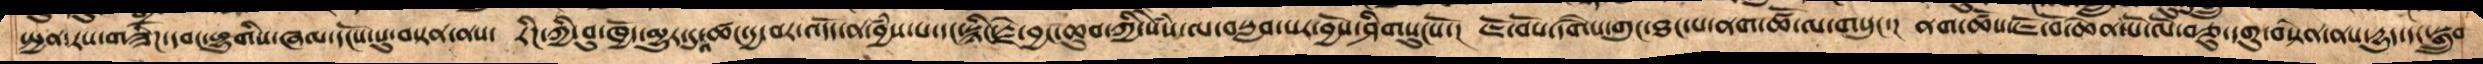སྤྱན་རས་གཟིཌ་དབང་ཕྱུགིས་ཞལ་དངོས་སུ་བསྟན་ནས། རིཌ་ཀྱི་བུ་ཁྱོད་མྱུར་དུ་འཚང་དྱ་བར་འདོད་ན་བྱཾས་པ་དང་སྙིང་རྗེ་བྱང་ཆུབ་ཀྱི་སེཾས་ལ་བསླབ་པར་བྱོས་ཤིགསུངསོ་།  ཇོ་བོས་དགཻས་གུང་ཐང་པ་ནག་ཚོ་ལ་གསུང་། ནག་ཚོས་ཇོ་བོ་ཆེན་པོ་ལོ་བཅུ་དགུ་བསྟེན་ནས་དྱུད་དང་སྒྲུབ་
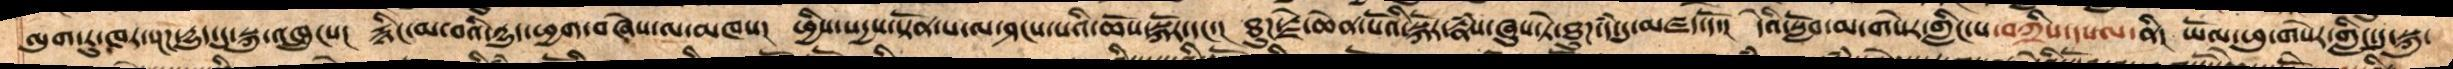ལུག་རུ་ཁར་སྔཌ་དྱུད་དུ་སྐུ་འཁྲུངས།  རྙིང་པ་བའི་དྱུད་ཕྱག་བཞེས་ལ་མཁས།  ཕྱིས་སདྱས་སྟོན་པ་ལ་ཤངས་པའི་ཆོས་སྐོར་དང་།  ཐུཌ་རྗེ་ཆེན་པོའི་སྐོར་རྣཾས་ཞུས་ཏེ་ཐུཌ་དཾ་དུ་མཛད་དོ་།  དེའི་སློབ་མ་གསེར་གླིང་པ་བཀྲིས་དཔལ་ནི།  ཡོལ་ཕུ་གསེར་གླིང་དུ་སྐུ་
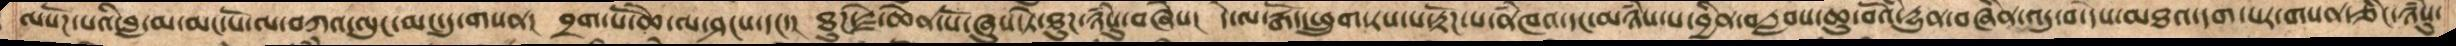ལ་སོཌ་པའིི་བླ་མ་མང་པོ་ལ་བཀའ་ལུང་མང་དུ་གསན།  བྲག་པོ་ཆེ་ལ་ཤངས་དང་།  ཐུཌ་རྗེ་ཆེན་པོ་ཞུས་ཏེ་ཐུཌ་ཉཾསུ་བཞེས།  དེ་ལ་རྒོད་ཕྲུག་རས་པ་རྟོཌ་པ་ནཾཁའ་དང་མཉཾས་པ་བྱིན་བརླབས་ཆུ་བོའི་དྱུན་བཞིན་འདུ་བ་དེས་མཐའ་དག་པར་གསན་ཅིང་ཉཾསུ་
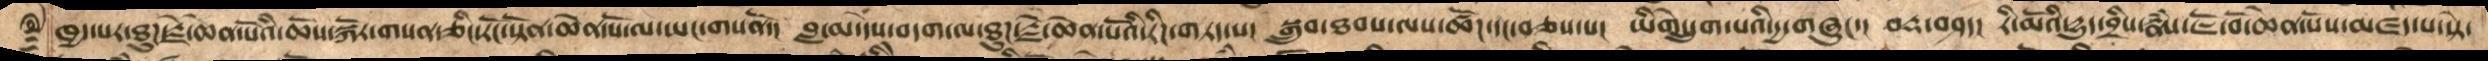ཁྱད་པར་ཐུཌ་རྗེ་ཆེན་པོའི་ཆོས་སྐོར་གསན་ཅིང་རོང་སྟོན་ཆེན་པོ་ལ་ཡང་གསནོ།  བླ་མ་དེས་བདག་ལ་ཐུཌ་རྗེ་ཆེན་པོའི་རིཌ་པ་གཏད་པ། སྒྲུབ་ཐབས་ལས་ཚོཌ་དང་བཅས་པ། ཡིགེ་དྲུག་པའི་དྱ་གཞུང་། བརྡ་བཤད། རི་མོའི་དྱུད་བྲིས་རྣཾས་ཇོ་བོ་ཆེན་པོས་མཛད་པ་སྟེ་
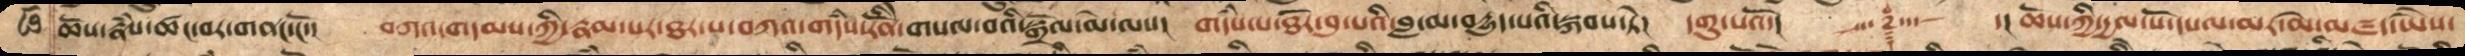ཆོས་རྣཾས་ཚང་བར་གནང་ངོ་།  བཀའ་གདམས་ཀྱི་རྣམ་པར་ཐར་པ་བཀའ་གདཾས་རིནོེ་གསལ་བའི་སྒྲོན་མེ་ལས།  གདཾས་པ་ཐོར་བུ་བའི་བླ་མ་བདྱུད་པའི་སྐབས་ཏེ། དགུ་པའོ།  ༒ ་།ཆོས་ཀྱི་དྱལ་པོ་དཔལ་མར་མེ་མཛད་ཡཻས་
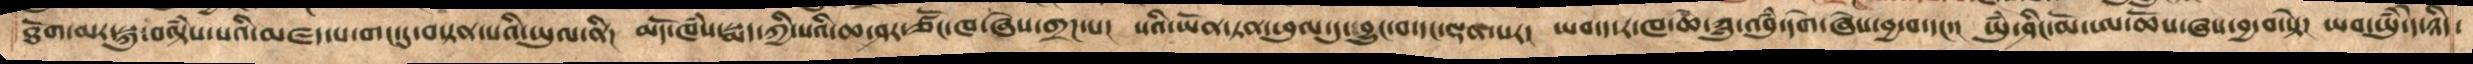ཐོག་མར་སྐུ་བལྟཾས་པའི་མཛད་པ་གང་དུ་བསྟན་པའི་ཡུལ་ནི།  མདོ་ཁཾས་སྨད་ཀྱི་སའི་ཆ་ཤར་ཙོང་ཁ་ཞེས་གྲཌ་པ།   སའི་ཡོན་ཏན་ཕུལ་དུ་བྱུང་བ་དང་ལྡན་པར།  ཡབ་ད་ར་ཁ་ཆེ་ཀླུ་འབུཾ་དགེ་ཞེས་བྱ་བ་དང་།   ཡུཾ་ཤིང་མོ་ཨ་ཆོས་ཞས་བྱ་བ་སྟེ།  ཡབ་ཡུཾ་དེ་ཉིད་
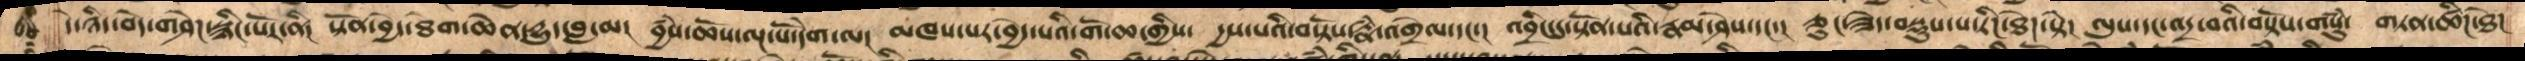དེ་ཉིད་བདེ་གཤེཌ་སྙིང་པོར་ནི།  སྟོན་བྱེད་ཐེག་ཆེན་དྱུད་བླ་མ།  བྱཾས་ཆོས་ལྔ་པོ་དེག་ལ།  མཁས་པར་བྱེད་པའི་གོ་ཆ་གྱིས། དྱས་པའི་བསྟོས་རྣཾ་འགྲེལ་དང་།  འབྲིང་དུ་སྟོན་པ་རྣམ་ཤེས་དང་།  ཅུང་ཟད་བསྡུས་པ་རིཌ་ཐེཌ་སྟེ།  ལུས་དང་འདྲ་བའི་བསྟོས་གསུཾ།  གཏན་ཚིཌ་ཐེཌ
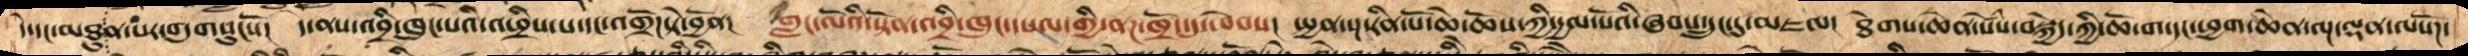དེ་དང་མཐུན་པར་འདུགསུངསོ།  དེ་ནས་འབྲི་ཁུང་པའི་འཕྲིས་པ་དང་འགྲོཌ་ཏེ་བྱོན།   གླང་ལོའི་སྟོན་འབྲི་ཁུང་དཔལ་གྱི་ནཌ་ཁྲོད་དུ་ཕེབས།   སྤྱན་སྔ་རིན་པོ་ཆེ་ཆོས་ཀྱི་དྱལ་པོའི་ཞབས་དྲུང་དུ་མཇལ།   ཐེགས་ཆེན་སེཾས་བསྐྱེད་ཀྱི་ཆོ་ག་དང་ཕྱག་ཆེན་ལྔ་ལྡན་ལསོཌ་
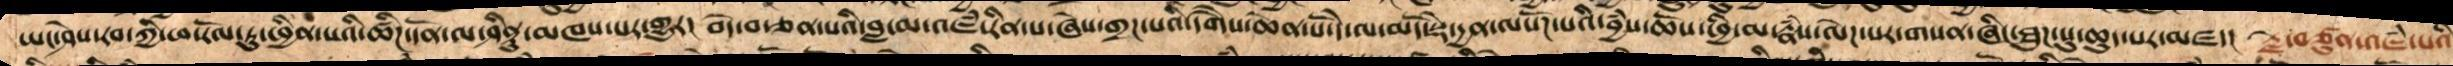ཡང་ཤེས་རབ་ཀྱི་ཕ་རོལ་དུ་ཕྱིན་པའི་ཚིཌ་དོན་ལ་ཤིནྟུ་མཁས་པར་གྱུར།  བདེ་བ་ཅན་པའི་བླ་མ་འཛཾ་རིན་པ་ཞེས་གྲཌ་པའི་དགཻས་ཆེན་པོ་དེ་ལ་མདོ་སྡེ་དྱན་ལསོཌ་པའི་བྱཾས་ཆོས་ཕྱི་མ་རྣཾས་ལེཌ་པར་གསན་ཞིང་ཐུཌ་སུ་ཆུད་པར་མཛད།  རྗེ་བཙུན་འཇཾ་པའི
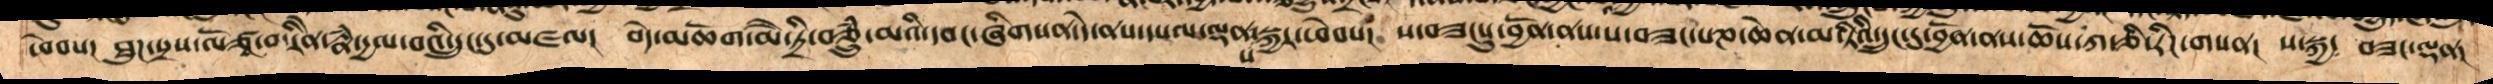ཕེབས། ཐུཌ་སྲས་ལོཙཱ་བ་རིེན་རྣཾ་དྱལ་བའི་དྲུང་དུ་མཇལ། བདེ་མཆོག་མཻ་ཏྲི་བཅྲུཾ་མའི་དབང་ཞིགསན་དེ་ནས་དཔལ་ལྡན་ས་སྐྱར་ཕེབས། ས་བཟང་དུ་བྱོན་ནས་ས་བཟང་པཎ་ཆེན་མ་ཏིའི་དྲུང་དུ་བྱོན་ནས་ཆོས་ཀ་ཅི་རིཌ་གསན། ས་སྐྱ་ བཟང་ལྡན།
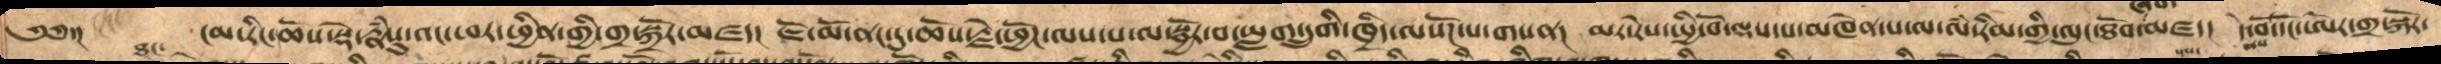༄༅་།  ངམ་རིང་ཆོས་སྡེ་རྣཾསུ་འང་ཕར་ཕྱིན་གྱི་གྲ་སྐོར་མཛད། ཇོ་མོ་ནང་དུ་ཆོས་རྗེ་ཕྱོཌ་ལས་པ་ལ་སྦྱོར་བ་ཡླག་དྲུགི་ཁྲིད་ལསོཌ་པ་གསན། མར་རེས་སྤྱི་བོ་ལྷས་པ་མཁེན་པ་ལ་ལཾ་རིམ་གྱི་ལུང་ཐོབ་ཞིག་མཛད། དེ་ནས་བོ་དོང་ཨེར་གྲ་སྐོར་
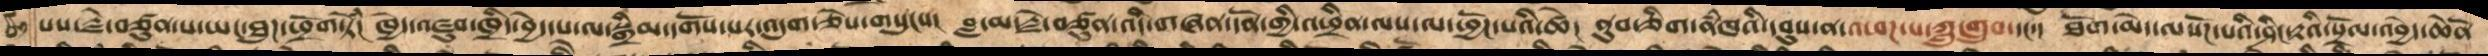པས་རྗེ་བཙུན་པ་ཡང་ཐུཌ་ཕྲོག་ཏེ། ཁྱེདའཛུབ་ཁྲིད་བྱེད་པ་ལ་སྒྲིམ་དགོས་པར་འདུག་ཅེས་གསུངས། བླ་མ་རྗེ་བཙུན་འདི་གཞན་དོན་གྱི་འཕྲིན་ལས་ལ་ཕྱོཌ་པའི་ཚེ། ནུབ་ཅིག་ནཾཁའི་དབུས་ན་འཕཌ་པ་ཀླུ་གྲུབ་དང་། ཐོག་མེད་ལསོཌ་པ་ཤིང་རྟའི་སྲོལ་འབྱེད་ཆེནོ
